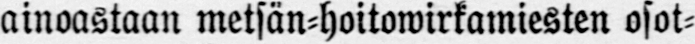ainoastaan metsän-hoitowirkamiesten osat-
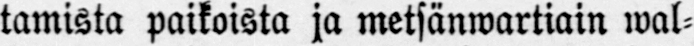tamista paikoista ja metsänwartiain wal-
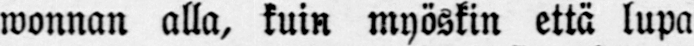wonnan alla, kuin myöskin että lupa
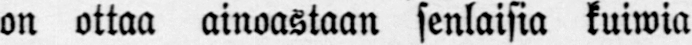on ottaa ainoastaan senlaisia kuiwia
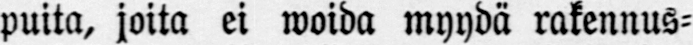puita, joita ei woida myydä rakennus-
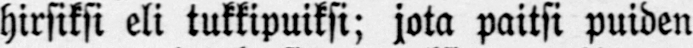hirsiksi eli tukkipuiksi; jota paitsi puiden
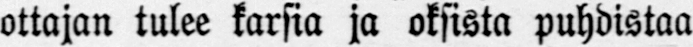ottajan tulee karsia ja oksista puhdistaa
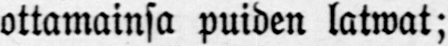ottamainsa puiden latwat;
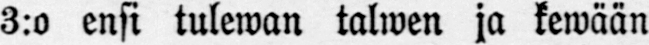3:o ensi tulewan talwen ja kewään
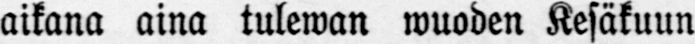aikana aina tulewan wuoden Kesäkuun
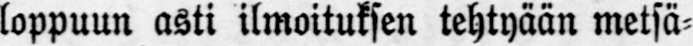loppuun asti ilmoituksen tehtyään metsä-
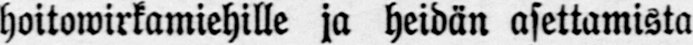hoitowirkamiehille ja heidän asettamista
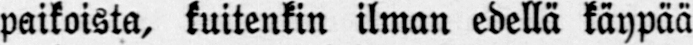paikoista, kuitenkin ilman edellä käypää
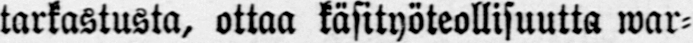tarkastusta, ottaa käsityöteollisuutta war-
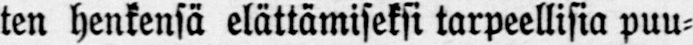ten henkensä elättämiseksi tarpeellisia puu-
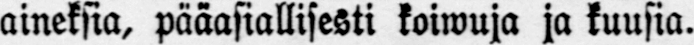aineksia, pääasiallisesti koiwuja ja kuusia.
